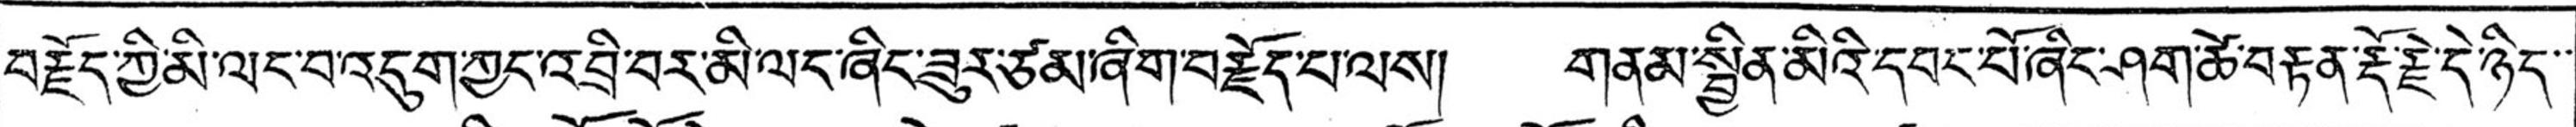བརྗོད་ཀྱི་མི་ལང་བ་འདུག་ཀྱང་འབྲི་བར་མི་ལངཞིང་ཟུར་ཙམ་ཞིག་བརྗོད་པ་ལས། གནམ་སྦྱིན་མིའི་དབང་པོ་ཞིང་ཤག་ཚེ་བརྟན་རྡོ་རྗེ་དེ་ཉིད་་
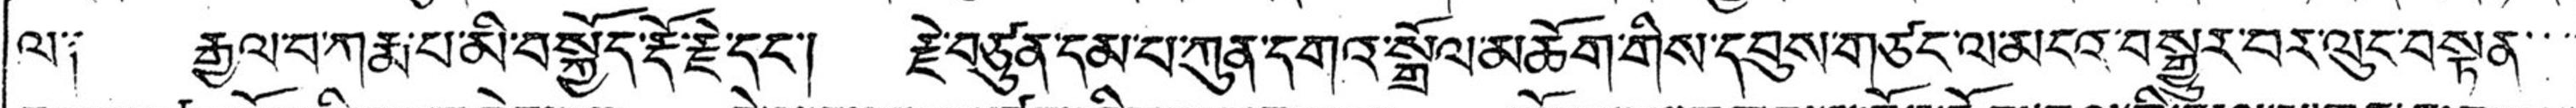ལ༑ རྒྱལ་བ་ཀརྨ་པ་མི་བསྐྱོད་རྡོ་རྗེ་དང་། རྗེ་བཙུན་དམ་པ་ཀུན་དགའ་སྒྲོལ་མཆོག་གིས་དབུས་གཙང་ལ་མངའ་བསྒྱུར་བར་ལུང་བསྟན་་་
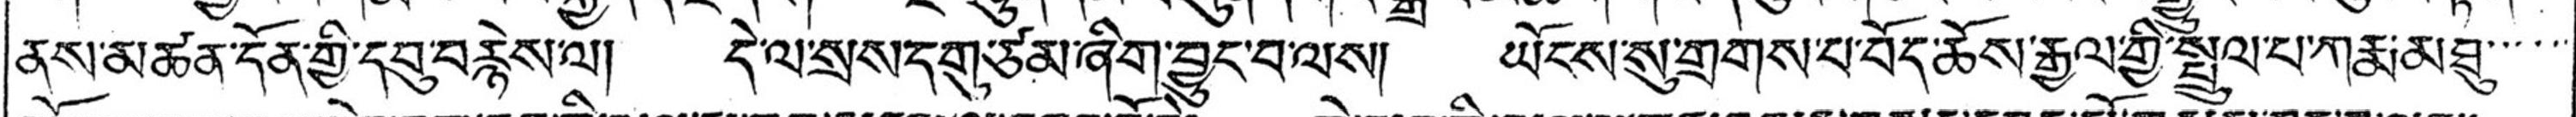ནས་མཚན་དོན་གྱི་དབུ་བརྙེས་ལ། དེ་ལ་སྲས་དགུ་ཙམ་ཞིག་བྱུང་བ་ལས། ཡོངས་སུ་གྲགས་པ་བོད་ཆོས་རྒྱལ་གྱི་སྤྲུལ་པ་ཀརྨ་མཐུ་་་་་་
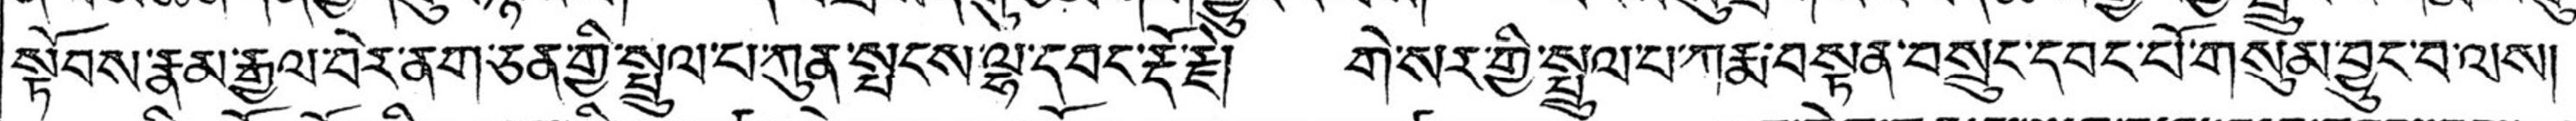སྟོབས་རྣམ་རྒྱལ་བེར་ནག་ཅན་གྱི་སྤྲུལ་པ་ཀུན་སྤངས་ལྷ་དབང་རྡོ་རྗེ། གེ་སར་གྱི་སྤྲལ་པ་ཀརྨ་བསྟན་བསྲུང་དབང་པོ་གསུམ་བྱུང་བ་ལས།
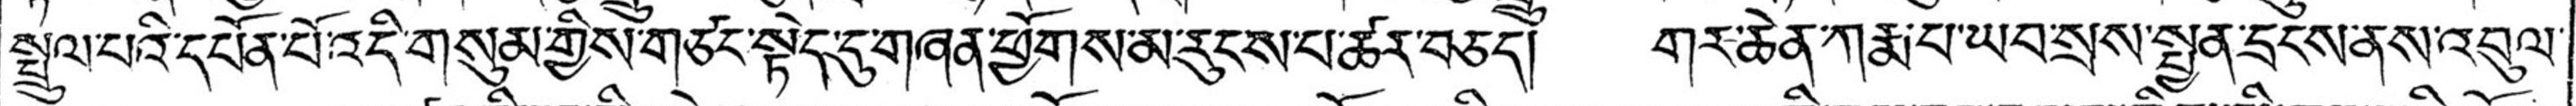སྤྲུལ་པའི་དཔོན་པོ་འདི་གསུམ་གྱིས་གཙང་སྟེད་དུ་གཞན་ཕྱོགས་མ་རུངས་པ་ཚར་བཅད། གར་ཆེན་ཀརྨ་པ་ཡབ་སྲས་སྤྱན་དྲངས་ནས་འབུལ་
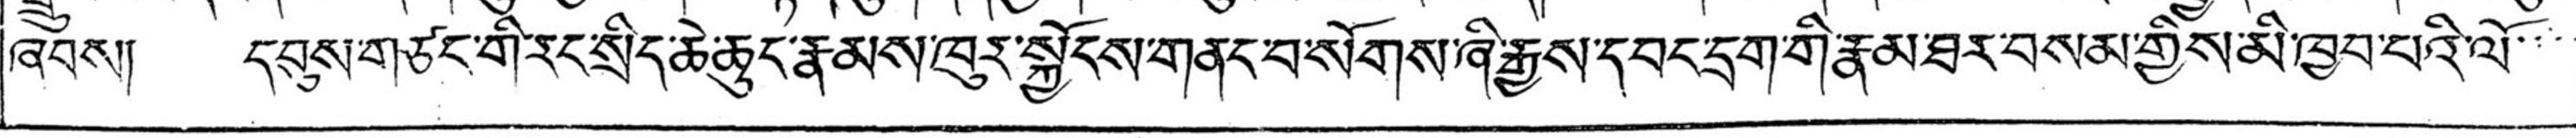ཞབས། དབུས་གཙང་གི་རང་སྲིད་ཆེ་ཆུང་རྣམས་ཁུར་སྐྱོངས་གནང་བ་སོགས་ཞི་རྒྱས་དབང་དྲག་གི་རྣམ་ཐར་བསམ་གྱིས་མི་ཁྱབ་པའི་ལོ་་་་
